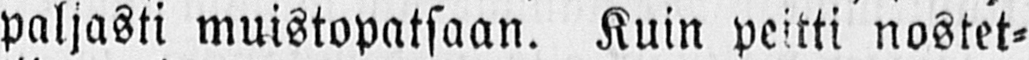paljasti muistopatsaan. Kuin peitti nostet-
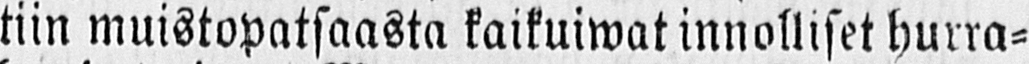tiin muistopatsaasta kaikuiwat innolliset hurra-
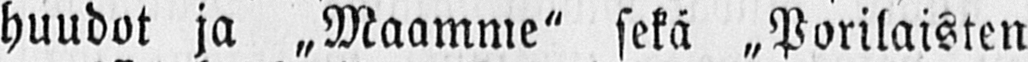huudot ja „Maamme" sekä „Porilaisten
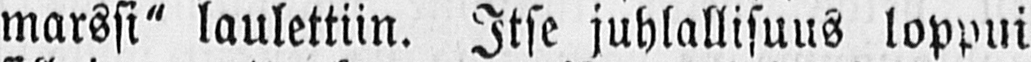marssi" laulettiin. Itse juhlallisuus loppui
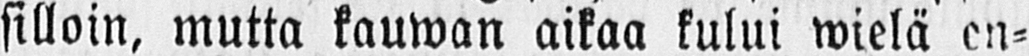silloin, mutta kauwan aikaa kului wielä en-
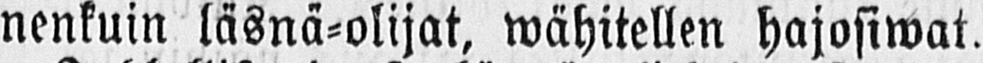nenkuin läsnä-olijat, wähitellen hajosiwat.
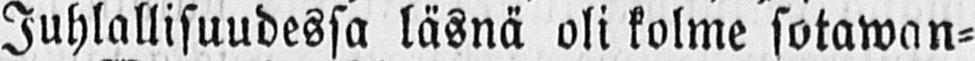Juhlallisuudessa läsnä oli kolme sotawan-
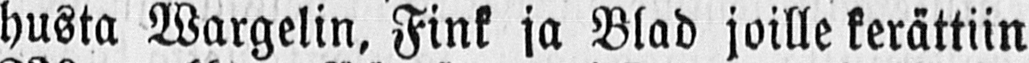husta Wargelin, Fink ja Blad joille kerättiin
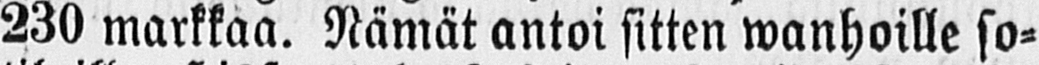230 markkaa. Nämät antoi sitten wanhoille so-
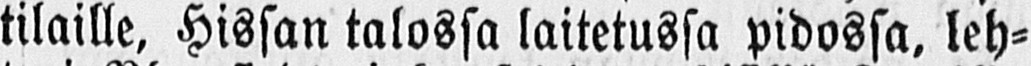tilaille, Hissan talossa laitetussa pidossa, leh-
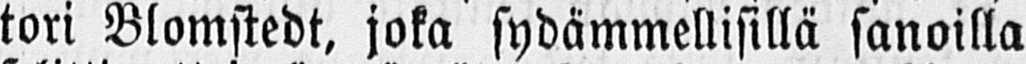tori Blomstedt, joka sydämmellisillä sanoilla
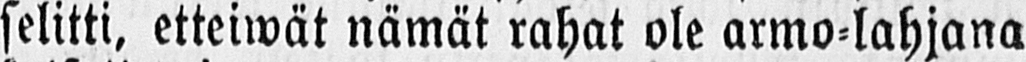selitti, etteiwät nämät rahat ole armo-lahjana
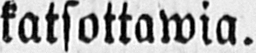katsottawia.
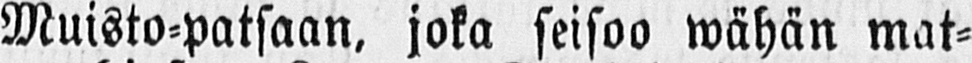Muisto-patsaan, joka seisoo wähän mat-
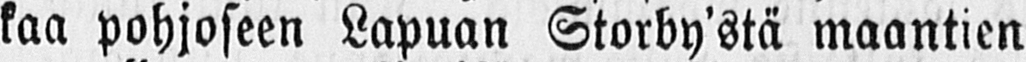kaa pohjoseen Lapuan Storby'stä maantien
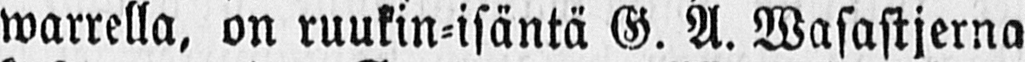warrella, on ruukin-isäntä G. A. Wasastjerna
